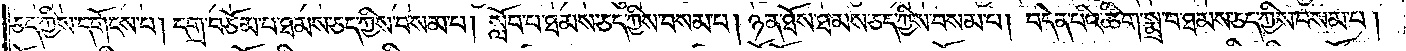ཅད་ཀྱིས་དགོངས་པ། དགྲ་བཅོམ་པ་ཐམས་ཅད་ཀྱིས་བསམ་པ། སློབ་པ་ཐམས་ཅད་ཀྱིས་བསམ་པ། ཉན་ཐོས་ཐམས་ཅད་ཀྱིས་བསམ་པ། བདེན་པའི་ཚིག་སྨྲ་བ་ཐམས་ཅད་ཀྱིས་བསམ་པ།
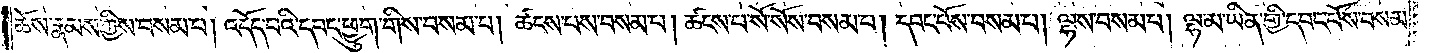ཆོས་རྣམས་ཀྱིས་བསམ་པ། འདོད་པའི་དབང་ཕྱུག་གིས་བསམ་པ། ཚངས་པས་བསམ་པ། ཚངས་པ་སོ་སོས་བསམ་པ། དབང་པོས་བསམ་པ། ལྷས་བསམ་པ། ལྷ་མ་ཡིན་གྱི་དབང་པོས་བསམ་
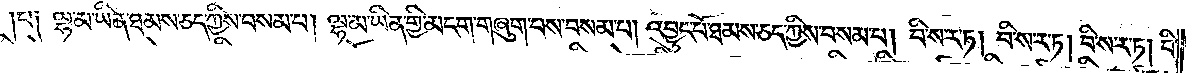པ༑ ལྷ་མ་ཡིན་ཐམས་ཅད་ཀྱིས་བསམ་པ། ལྷ་མ་ཡིན་གྱི་མངག་གཞུག་བས་བསམ་པ། འབྱུང་པོ་ཐམས་ཅད་ཀྱིས་བསམ་པ། བི་ས་ར་ཏ། བི་ས་ར་ཏ། བི་ས་ར་ཏ། བི་
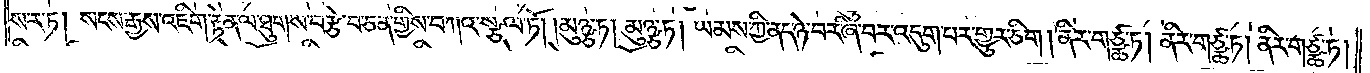ས་ར་ཏ། སངས་རྒྱས་འཇིག་རྟེན་ལ་ཐུགས་བརྩེ་བ་ཅན་གྱིས་བཀའ་སྩལ་ཏོ། །མུཉྩ་ཏ། མུཉྩ་ཏ། ཡམས་ཀྱི་ནད་ཉེ་བར་ཞི་བར་འདུག་པར་གྱུར་ཅིག །ནིར་གཙྪ་ཏ། ནིར་གཙྪ་ཏ། ནིར་གཙྪ་ཏ།
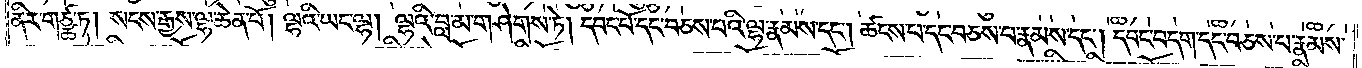ནིར་གཙྪ་ཏ། སངས་རྒྱས་ལྷ་ཆེན་པོ། ལྷའི་ཡང་ལྷ། ལྷའི་བླ་མ་གཤེགས་ཏེ། དབང་པོ་དང་བཅས་པའི་ལྷ་རྣམས་དང༌། ཚངས་པ་དང་བཅས་པ་རྣམས་དང༌། དབང་བདག་དང་བཅས་པ་རྣམས་
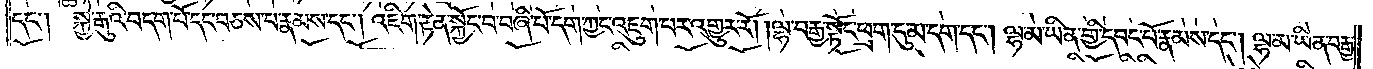དང༌། སྐྱེ་རྒུའི་བདག་པོ་དང་བཅས་པ་རྣམས་དང༌། འཇིག་རྟེན་སྐྱོང་བ་བཞི་པོ་དག་ཀྱང་འཇུག་པར་འགྱུར་རོ། །ལྷ་བརྒྱ་སྟོང་ཕྲག་དུ་མ་དག་དང༌། ལྷ་མ་ཡིན་གྱི་དབང་པོ་རྣམས་དང༌། ལྷ་མ་ཡིན་བརྒྱ་
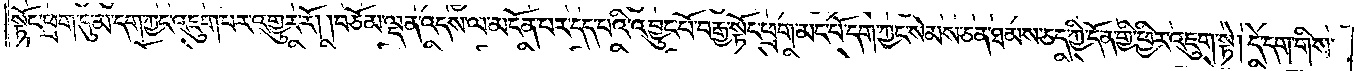སྟོང་ཕྲག་དུ་མ་དག་ཀྱང་འཇུག་པར་འགྱུར་རོ། །བཅོམ་ལྡན་འདས་ལ་མངོན་པར་དད་པའི་འབྱུང་པོ་བརྒྱ་སྟོང་ཕྲག་མང་པོ་དག་ཀྱང་སེམས་ཅན་ཐམས་ཅད་ཀྱི་དོན་གྱི་ཕྱིར་འཇུག་སྟེ། དེ་དག་གིས་
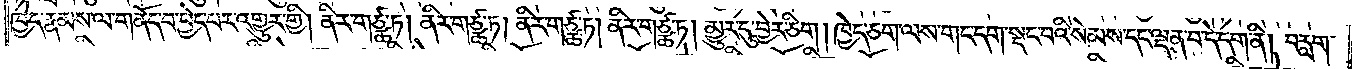ཁྱེད་རྣམས་ལ་གནོད་པ་བྱེད་པར་འགྱུར་གྱི། ནིར་གཙྪ་ཏ། ནིར་གཙྪ་ཏ། ནིར་གཙྪ་ཏ། ནིར་གཙྪ་ཏ། མྱུར་དུ་བྱེར་ཅིག །ཁྱེད་ཅག་ལས་གང་དག་སྡང་བའི་སེམས་དང་ལྡན་པ་དེ་དག་ནི། བརླག་
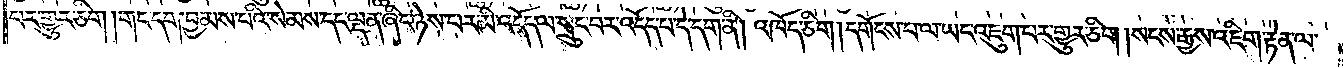པར་གྱུར་ཅིག །གང་དག་བྱམས་པའི་སེམས་དང་ལྡན་ཞིང་ཉེས་པར་མི་འདོད་ལ་སྲུང་བར་འདོད་པ་དེ་དག་ནི། འཁོད་ཅིག །དགོངས་པ་ལ་ཡང་འཇུག་པར་གྱུར་ཅིག། སངས་རྒྱས་འཇིག་རྟེན་ལ་
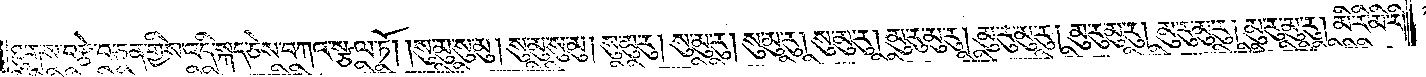ཐུགས་བརྩེ་བ་ཅན་གྱིས་འདི་སྐད་ཅེས་བཀའ་སྩལ་ཏོ། །སུ་མུ་སུ་མུ། །སུ་མུ་སུ་མུ། སུ་མུ་རུ། སུ་མུ་རུ། སུ་མུ་རུ། སུ་མུ་རུ། མུ་རུ་མུ་རུ། མུ་རུ་མུ་རུ། མུ་རུ་མུ་རུ། མུ་རུ་མུ་རུ། མུ་རུ་མུ་རུ། མི་རི་མི་རི་
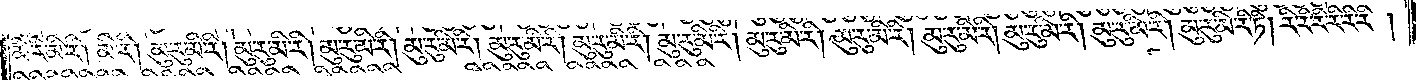མི་རི་མི་རི། མི་རི། མུ་རུ་མི་རི། མུ་རུ་མི་རི། མུ་རུ་མི་རི། མུ་རུ་མི་རི། མུ་རུ་མི་རི། མུ་རུ་མི་རི། མུ་རུ་མི་རི། མུ་རུ་མི་རི། མུ་རུ་མི་རི། མུ་རུ་མི་རི། མུ་རུ་མི་རི། མུ་རུ་མི་རི། མུ་རུ་མི་རི་ཏི། རི་རི་རི་རི་རི་རི།
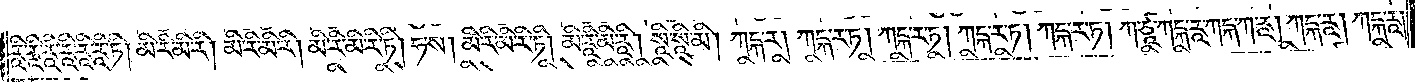རཱི་རཱི་རཱི་རཱི་རཱི་རཱི་ཏི། མི་རི་མི་རི། མི་རི་མི་རི། མི་རི་མི་རི་ཏི། ཧ་ས། མི་རི་མི་རི་ཏི། མི་རཱི་མི་རཱི། སཱི་སཱི་མི། ཀངྐ་ར། ཀངྐ་ར་ཏ། ཀངྐ་ར་ཏ། ཀངྐ་ར་ཏ། ཀངྐ་ར་ཏ། ཀ་ཙཱ་ཀངྐ་རཱ་ཀངྐ་ཀ་རཱ། ཀངྐ་རཱ། ཀངྐ་རཱ།
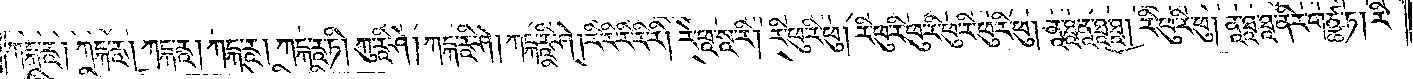ཀངྐ་རཱ། ཀངྐ་རཱ། ཀངྐ་རཱ། ཀངྐ་རཱ། ཀངྐ་རཱ་ཏི། ཀུ་རཱི་ཤེ། ཀངྐ་རཱི་ཤེ། ཀངྐ་རཱི་ཤེ། རི་རི་རི་རི་རི། རེ་ཕཱ་སཱ་རི། རི་ཕུ་རི་ཕུ། རི་ཕུ་རི་ཕུ་རི་ཕུ་རི་ཕུ་རི་ཕུ། ནཱ་ཐཱ་ནཱ་ཐཱ་ཐཱ། རི་ཕུ་རི་ཕུ། ནཱ་ཐཱ་ཐཱ་ནིར་རིར་གཙྪ་ཏ། རི་
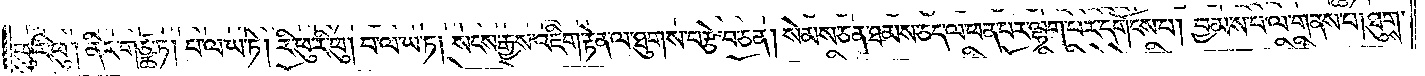ཕུ་རི་ཕུ། ནིར་གཙྪ་ཏ། པ་ལ་ཡ་ཏེ། རི་ཕུ་རི་ཕུ། པ་ལ་ཡ་ཏ། སངས་རྒྱས་འཇིག་རྟེན་ལ་ཐུགས་བརྩེ་བ་ཅན། སེམས་ཅན་ཐམས་ཅད་ལ་ཕན་པར་ལྷག་པར་དགོངས་པ། བྱམས་པ་ལ་གནས་པ། ཐུགས་
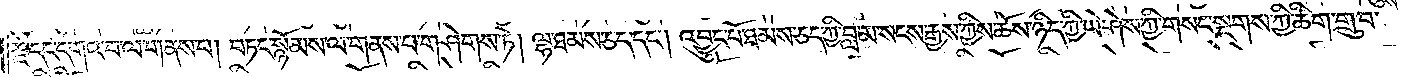རྗེ་དང་དགའ་བ་ལ་གནས་པ། བཏང་སྙོམས་ལ་གནས་པ་གཤེགས་ཏེ། ལྷ་ཐམས་ཅད་དང༌། འབྱུང་པོ་ཐམས་ཅད་ཀྱི་བླ་མ་སངས་རྒྱས་ཀྱིས་ཆོས་ཉིད་ཀྱི་ཡེ་ཤེས་ཀྱི་གསང་སྔགས་ཀྱི་ཚིག་གྲུབ་
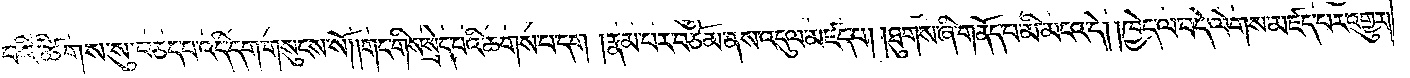བའི་ཚིགས་སུ་བཅད་པ་འདི་དག་གསུངས་སོ། །གང་གིས་སྲེད་པའི་ཆགས་པ་དག །རྣམ་པར་བཅོམ་ནས་འདུལ་མཛད་པ། །ཐུགས་ཞི་གནོད་པ་མི་མངའ་དེ། །ཁྱེད་ལ་བདེ་ལེགས་མཛད་པར་འགྱུར་
